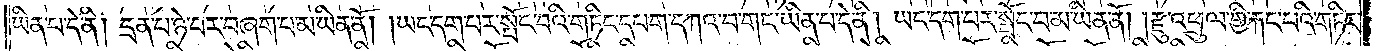ཡིན་པ་དེ་ནི། དྲན་པ་ཉེ་བར་བཞག་པ་མ་ཡིན་ནོ། །ཡང་དག་པར་སྤོང་བའི་གཏིང་དཔག་དཀའ་བ་གང་ཡིན་པ་དེ་ནི། ཡང་དག་པར་སྤོང་བ་མ་ཡིན་ནོ། །རྫུ་འཕྲུལ་གྱི་རྐང་པའི་གཏིང་
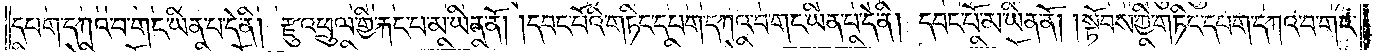དཔག་དཀའ་བ་གང་ཡིན་པ་དེ་ནི། རྫུ་འཕྲུལ་གྱི་རྐང་པ་མ་ཡིན་ནོ། །དབང་པོའི་གཏིང་དཔག་དཀའ་བ་གང་ཡིན་པ་དེ་ནི། དབང་པོ་མ་ཡིན་ནོ། །སྟོབས་ཀྱི་གཏིང་དཔག་དཀའ་བ་གང་
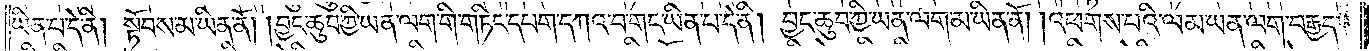ཡིན་པ་དེ་ནི། སྟོབས་མ་ཡིན་ནོ། །བྱང་ཆུབ་ཀྱི་ཡན་ལག་གི་གཏིང་དཔག་དཀའ་བ་གང་ཡིན་པ་དེ་ནི། བྱང་ཆུབ་ཀྱི་ཡན་ལག་མ་ཡིན་ནོ། །འཕགས་པའི་ལམ་ཡན་ལག་བརྒྱད་
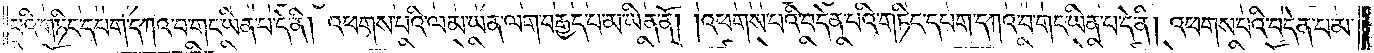པའི་གཏིང་དཔག་དཀའ་བ་གང་ཡིན་པ་དེ་ནི། འཕགས་པའི་ལམ་ཡན་ལག་བརྒྱད་པ་མ་ཡིན་ནོ། །འཕགས་པའི་བདེན་པའི་གཏིང་དཔག་དཀའ་བ་གང་ཡིན་པ་དེ་ནི། འཕགས་པའི་བདེན་པ་མ་
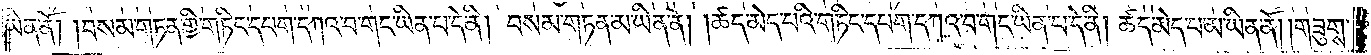ཡིན་ནོ། །བསམ་གཏན་གྱི་གཏིང་དཔག་དཀའ་བ་གང་ཡིན་པ་དེ་ནི། བསམ་གཏན་མ་ཡིན་ནོ། །ཚད་མེད་པའི་གཏིང་དཔག་དཀའ་བ་གང་ཡིན་པ་དེ་ནི། ཚད་མེད་པ་མ་ཡིན་ནོ། །གཟུགས་
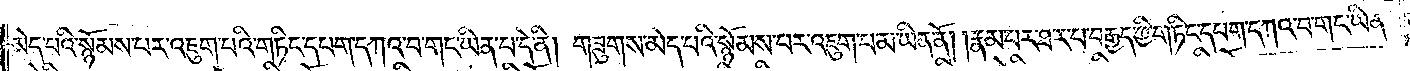མེད་པའི་སྙོམས་པར་འཇུག་པའི་གཏིང་དཔག་དཀའ་བ་གང་ཡིན་པ་དེ་ནི། གཟུགས་མེད་པའི་སྙོམས་པར་འཇུག་པ་མ་ཡིན་ནོ། །རྣམ་པར་ཐར་པ་བརྒྱད་ཀྱི་གཏིང་དཔག་དཀའ་བ་གང་ཡིན་
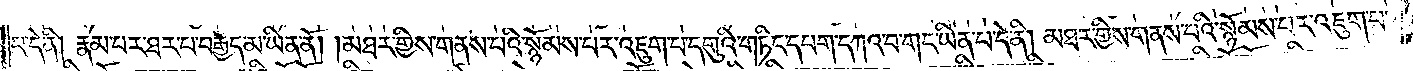པ་དེ་ནི། རྣམ་པར་ཐར་པ་བརྒྱད་མ་ཡིན་ནོ། །མཐར་གྱིས་གནས་པའི་སྙོམས་པར་འཇུག་པ་དགུའི་གཏིང་དཔག་དཀའ་བ་གང་ཡིན་པ་དེ་ནི། མཐར་གྱིས་གནས་པའི་སྙོམས་པར་འཇུག་པ་
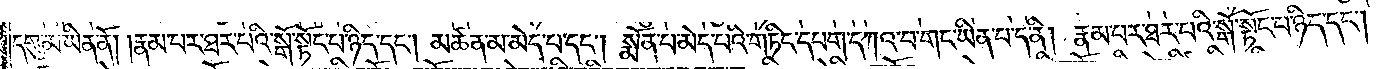དགུ་མ་ཡིན་ནོ། །རྣམ་པར་ཐར་པའི་སྒོ་སྟོང་པ་ཉིད་དང༌། མཚན་མ་མེད་པ་དང༌། སྨོན་པ་མེད་པའི་གཏིང་དཔག་དཀའ་བ་གང་ཡིན་པ་དེ་ནི། རྣམ་པར་ཐར་པའི་སྒོ་སྟོང་པ་ཉིད་དང༌།
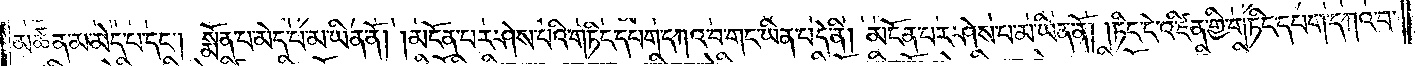མཚན་མ་མེད་པ་དང༌། སྨོན་པ་མེད་པ་མ་ཡིན་ནོ། །མངོན་པར་ཤེས་པའི་གཏིང་དཔག་དཀའ་བ་གང་ཡིན་པ་དེ་ནི། མངོན་པར་ཤེས་པ་མ་ཡིན་ནོ། །ཏིང་ངེ་འཛིན་གྱི་གཏིང་དཔག་དཀའ་བ་
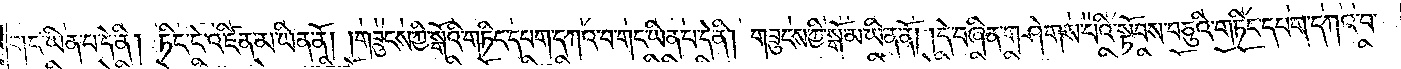གང་ཡིན་པ་དེ་ནི། ཏིང་ངེ་འཛིན་མ་ཡིན་ནོ། །གཟུངས་ཀྱི་སྒོའི་གཏིང་དཔག་དཀའ་བ་གང་ཡིན་པ་དེ་ནི། གཟུངས་ཀྱི་སྒོ་མ་ཡིན་ནོ། །དེ་བཞིན་གཤེགས་པའི་སྟོབས་བཅུའི་གཏིང་དཔག་དཀའ་བ་
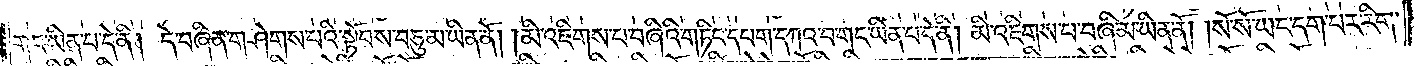གང་ཡིན་པ་དེ་ནི། དེ་བཞིན་གཤེགས་པའི་སྟོབས་བཅུ་མ་ཡིན་ནོ། །མི་འཇིགས་པ་བཞིའི་གཏིང་དཔག་དཀའ་བ་གང་ཡིན་པ་དེ་ནི། མི་འཇིགས་པ་བཞི་མ་ཡིན་ནོ། །སོ་སོ་ཡང་དག་པར་རིག་
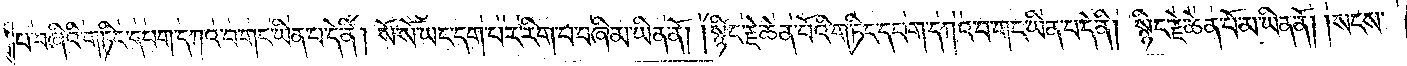པ་བཞིའི་གཏིང་དཔག་དཀའ་བ་གང་ཡིན་པ་དེ་ནི། སོ་སོ་ཡང་དག་པར་རིག་པ་བཞི་མ་ཡིན་ནོ། །སྙིང་རྗེ་ཆེན་པོའི་གཏིང་དཔག་དཀའ་བ་གང་ཡིན་པ་དེ་ནི། སྙིང་རྗེ་ཆེན་པོ་མ་ཡིན་ནོ། །སངས་
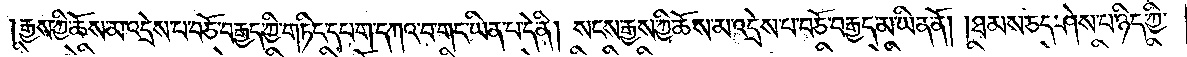རྒྱས་ཀྱི་ཆོས་མ་འདྲེས་པ་བཅོ་བརྒྱད་ཀྱི་གཏིང་དཔག་དཀའ་བ་གང་ཡིན་པ་དེ་ནི། སངས་རྒྱས་ཀྱི་ཆོས་མ་འདྲེས་པ་བཅོ་བརྒྱད་མ་ཡིན་ནོ། །ཐམས་ཅད་ཤེས་པ་ཉིད་ཀྱི་
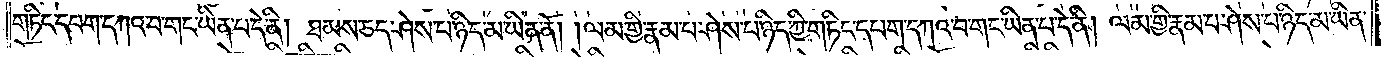གཏིང་དཔག་དཀའ་བ་གང་ཡིན་པ་དེ་ནི། ཐམས་ཅད་ཤེས་པ་ཉིད་མ་ཡིན་ནོ། །ལམ་གྱི་རྣམ་པ་ཤེས་པ་ཉིད་ཀྱི་གཏིང་དཔག་དཀའ་བ་གང་ཡིན་པ་དེ་ནི། ལམ་གྱི་རྣམ་པ་ཤེས་པ་ཉིད་མ་ཡིན་
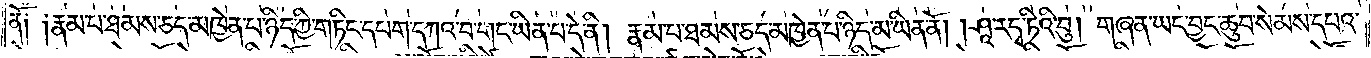ནོ༑ ༑རྣམ་པ་ཐམས་ཅད་མཁྱེན་པ་ཉིད་ཀྱི་གཏིང་དཔག་དཀའ་བ་གང་ཡིན་པ་དེ་ནི། རྣམ་པ་ཐམས་ཅད་མཁྱེན་པ་ཉིད་མ་ཡིན་ནོ། །ཤཱ་རདྭ་ཏིའི་བུ། གཞན་ཡང་བྱང་ཆུབ་སེམས་དཔའ་
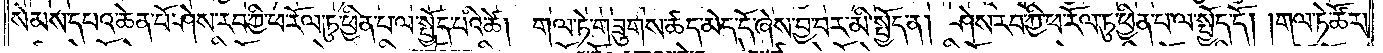སེམས་དཔའ་ཆེན་པོ་ཤེས་རབ་ཀྱི་ཕ་རོལ་ཏུ་ཕྱིན་པ་ལ་སྤྱོད་པའི་ཚེ། གལ་ཏེ་གཟུགས་ཚད་མེད་དོ་ཞེས་བྱ་བར་མི་སྤྱོད་ན། ཤེས་རབ་ཀྱི་ཕ་རོལ་ཏུ་ཕྱིན་པ་ལ་སྤྱོད་དོ། །གལ་ཏེ་ཚོར་
